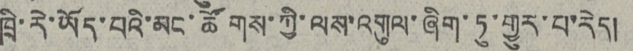ཁྲི་རེ་ཡོད་པའི་མང་ཚོགས་ཀྱི་ལས་འགུལ་ཞིག་ཏུ་གྱུར་པ་རེད།
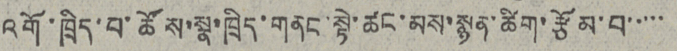འགོ་ཁྲིད་པ་ཚོས་སྣ་ཁྲིད་གནང་སྟེ་ཚང་མས་སྙན་ཚིག་རྩོམ་བ་་་་་
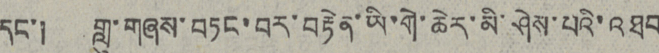དང་། གླུ་གཞས་བཏང་བར་བརྟེན་ཡི་གེ་ཆེར་མི་ཤེས་པའི་འཐབ
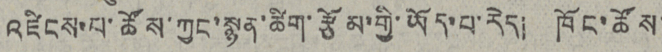འཛིངས་པ་ཚོས་ཀྱང་སྙན་ཚིག་རྩོམ་གྱི་ཡོད་པ་རེད། ཁོང་ཚོས་
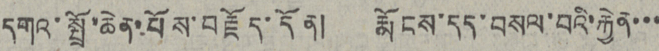དགའ་སྤྲོ་ཆེན་པོས་བརྗོད་དོན། རྨོངས་དུད་བསལ་བའི་རྐྱེན་་་
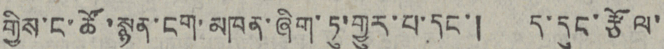གྱིས་ང་ཚོ་སྙན་ངག་མཁན་ཞིག་ཏུ་གྱུར་པ་དང་། ད་དུང་རྩོལ་
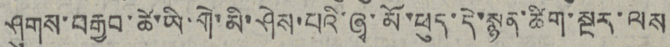ཤུགས་བརྒྱབ་ཚེ་ཡི་གེ་མི་ཤེས་པའི་ཞྭ་མོ་ཕུད་དེ་སྙན་ཚིག་སྔར་ལས་
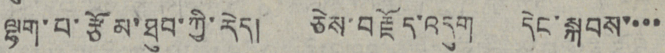ལྷག་པ་རྩོམ་ཐུབ་ཀྱི་རེད། ཅེས་བརྗོད་འདུག དེང་སྐབས་་་་
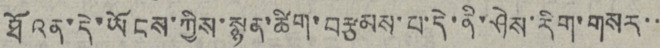ཐོའན་དེ་ཡོངས་ཀྱིས་སྙན་ཚིག་བརྩམས་པ་དེ་ནི་ཤེས་རིག་གསར་་
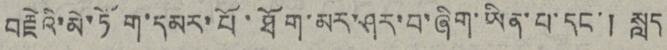བརྗེའི་མེ་ཏོག་དམར་པོ་ཐོག་མར་ཤར་བ་ཞིག་ཡིན་པ་དང་།  སླད
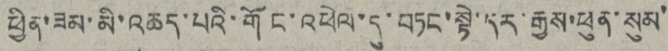ཕྱིན་ཟམ་མི་འཆད་པའི་གོང་འཕེལ་དུ་བཏང་སྟེ་དར་རྒྱས་ཕུན་སུམ་
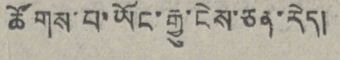ཚོགས་པ་ཡོང་རྒྱུ་ངེས་ཅན་རེད།
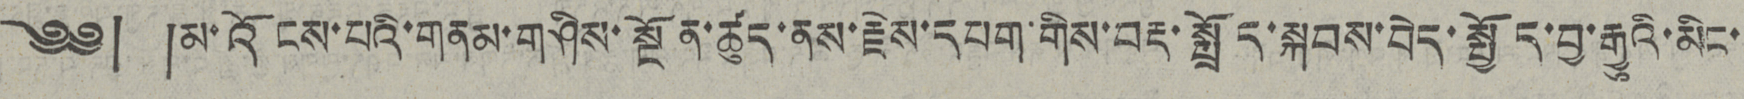༄༅། །མ་འོངས་པའི་གནམ་གཤིས་སྔོན་ཚུད་ནས་རྗེས་དཔག་གིས་བརྡ་སྤྲོད་སྐབས་བེད་སྤྱོད་བྱ་རྒྱུའི་མིང་
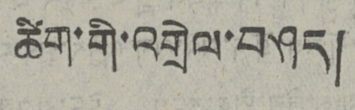ཚིག་གི་འགྲེལ་བཤད།
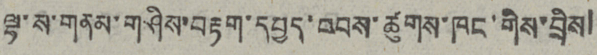ལྷ་ས་གནམ་གཤིས་བརྟག་དཔྱད་བབས་ཚུགས་ཁང་གིས་བྲིས།
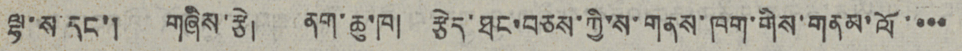ལྷ་ས་དང་། གཞིས་རྩེ། ནག་ཆུ་ཁ། རྩེད་ཐང་བཅས་ཀྱི་ས་གནས་ཁག་གིས་གནམ་ལོ་་་་
